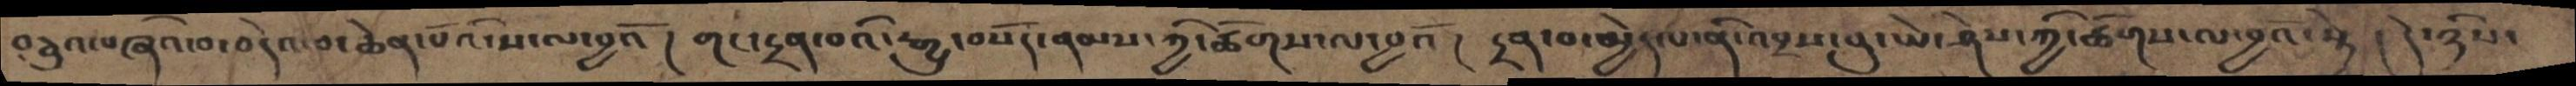བཅུའ་བཞིའ་བ་བདེའ་བ་ཆེན་པོའི་ས་ལ་བྱའོ ། གང་དྲན་བའི་རྒྱུ་བསོད་ནམས་ཀྱི་ཚོགས་ལ་བྱའོ ། དྲན་བ་མྱེད་པ་ནི་འབྲས་བུ་ཡེ་ཤེས་ཀྱི་ཚོགས་ལ་བྱའོ་སྟེ  ། དེ་ཉིས་
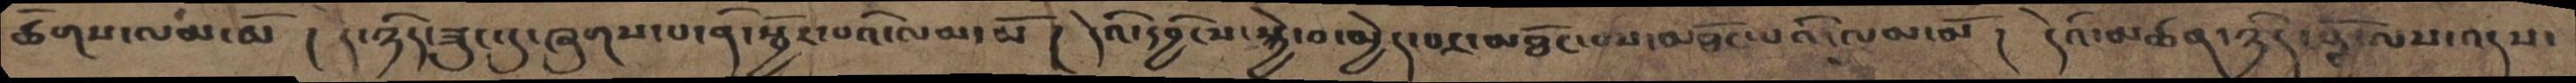ཚོགས་ལམ་མོ  ། དེ་ཉིད་ཟུང་དུ་ཞུགས་པ་ནི་སྦྱོར་བའི་ལམ་མོ ། དེའི་དབྱིངས་སྐྱེ་བ་མྱེད་པར་མཐོང་བས་མཐོང་པའི་ལམ་མོ །  དེའི་མཚན་ཉིད་བློ་ལས་འདས་
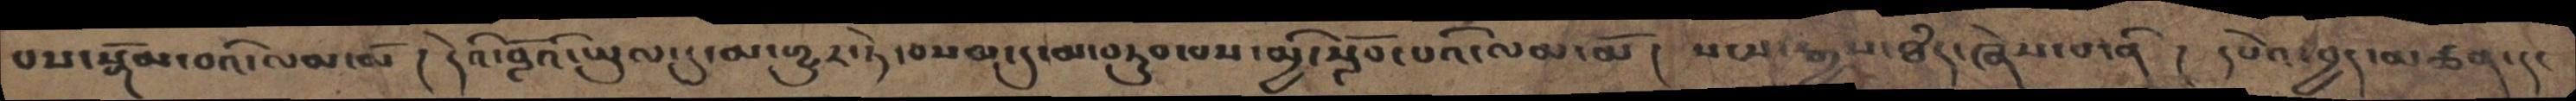པས་སྒོམ་བའི་ལམ་མོ  ། དེའི་བློའི་ཡུལ་དུ་མ་གྱུར་ཏེ་བསམ་དུ་མ་བཏུབ་པས་མྱི་སློབ་པའི་ལམ་མོ །  སངས་རྒྱས་ཐཾད་ཞེས་པ་ནི  །  དཔེའ་བྱད་མཚན་དང
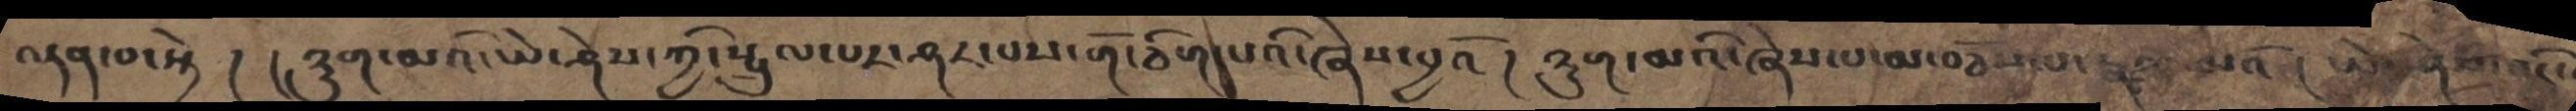འདན་བ་སྟེ་ ། །ཉུག་མའི་ཡེ་ཤེས་ཀྱི་སྤྲུལ་པར་ཤར་པས་གོ་ཅིག།པའི་ཞེས་བྱའོ ། ཉུག་མའི་ཞེས་པ་མ་བཅོས་པ་རྣལ་མའོ ། ཡེ་ཤེས་ཤར་
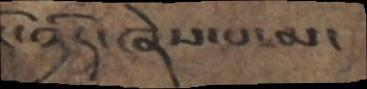དེ་ཉིད་ཞེས་པ་མང
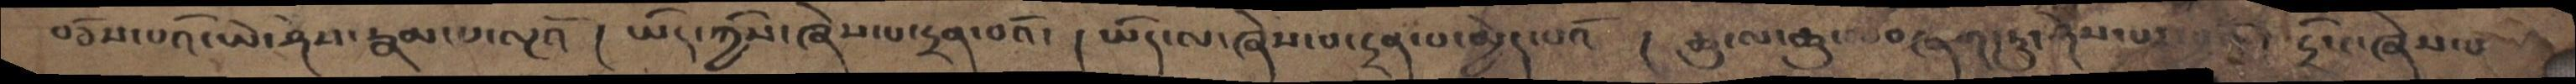བཅོས་པའི་ཡེ་ཤེས་རྣམ་པ་ལྔའོ ། ཡིད་ཀྱིས་ཞེས་པ་དྲན་བའོ་། ཡིད་ལ་ཞེས་པ་དྲན་པ་མྱེད་པའོ ། ཆུ་ལ་ཆུ་བཞག་ཏུ་ཤེས་པར་བྱའོ། དྲིས་ཞེས་པ་
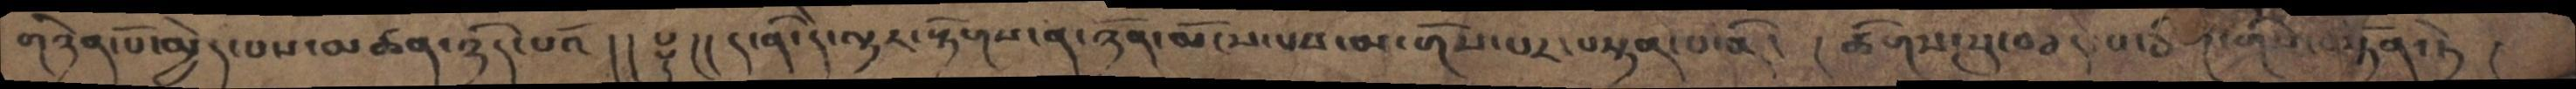གཉེན་པོ་མྱེད་པས་མཚན་ཉིད་པའོ།། ༈ །།ད་ནི་དེ་ལྟར་རྟོགས་ན་ཉོན་མོངས་པས་མ་གོས་པར་བསྟན་པ་ནི་ །ཚིགས་སུ་བཅད་པ་ཅིག་གིས་བསྟོན་ཏེ་ །
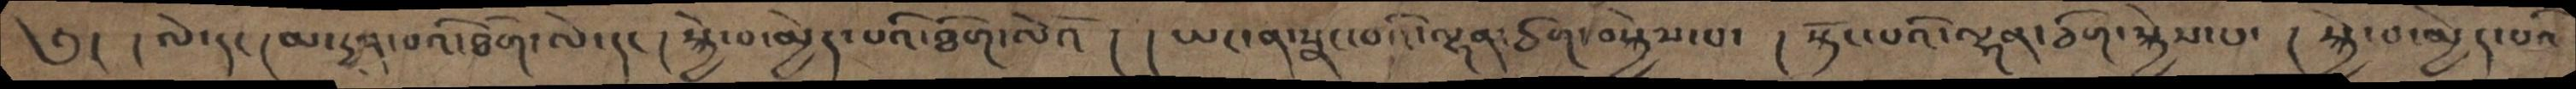༄།  །ལེ་དང ། མ་དྱན་པའི་ཐིག་ལེ་དང །སྐྱེ་བ་མྱེད་པའི་ཐིག་ལེའོ ། །ཡང་ན་སྣང་བའི་ལྷན་ཅིག་བསྐྱེས་པ་ །སྟོང་པའི་ལྷན་ཅིག་སྐྱེས་པ་ །སྐྱེ་བ་མྱེད་པའི་
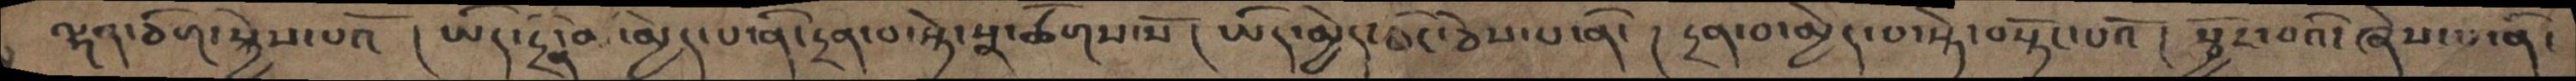ལྷན་ཅིག་སྐྱེས་པའོ ། ཡིད་དྲིན་བ་མྱེད་པ་ནི་དྲན་པ་སྟེ་སྣ་ཚོགས་སོ ། ཡིད་མྱེད་ཅིང་ཅེས་པ་ནི་། དྲན་བ་མྱེད་པ་སྟེ་བསྟོང་པའོ ། སྦྱོར་བའི་ཞེས་པ་ནི་
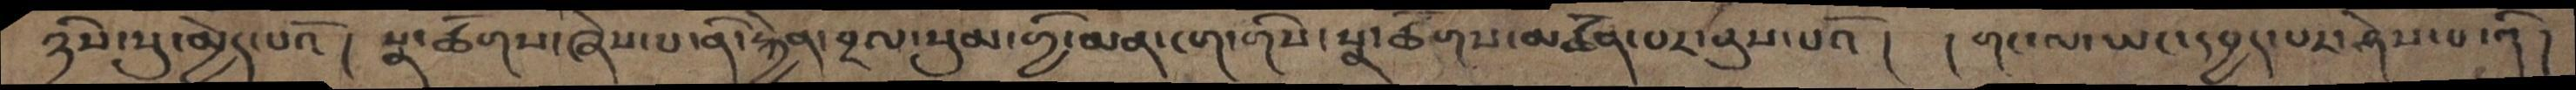ཉིས་སུ་མྱེད་པའོ །སྣ་ཚོགས་ཞེས་པ་ནི་རྐྱེན་བྲལ་སུམ་གྱི་མན་ངག་གིས་སྣ་ཚོགས་མཚོན་པར་ནུས་པའོ ། །གང་ལ་ཡང་དཔྱད་པར་ཤེས་པ་ནི།
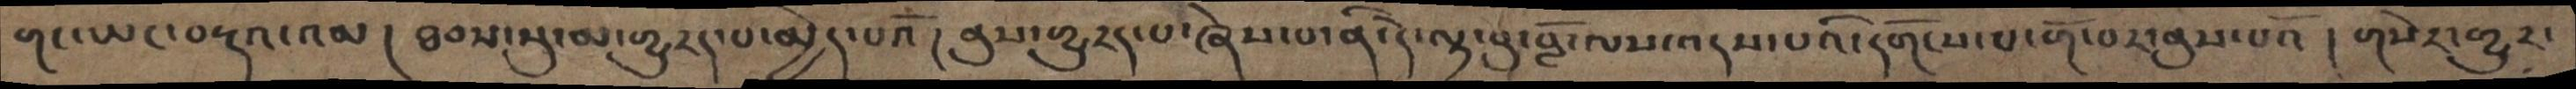གང་ཡང་བརྡའ་འམ །ཐབས་སུ་མ་གྱུརད་པ་མྱེད་པའོ །ནུས་གྱུརད་པ་ཞེས་པ་ནི་དེ་ལྟ་བུ་བློ་ལས་འདས་པའི་དགོངས་པ་གོ་བར་ནུས་པའོ། གསེར་གྱུར་
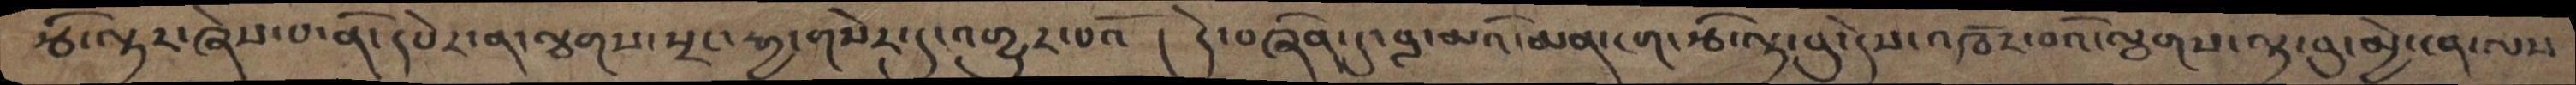རྩི་ལྟར་ཞེས་པ་ནི་དཔེར་ན་ལྕགས་སྲང་རྒྱ་གསེར་དུ་འགྱུར་བའོ ། དེ་བཞིན་དུ་བླ་མའི་མན་ངག་རྩི་ལྟ་བུ་དེས་འཁོར་བའི་ལྕགས་ལྟ་བུ་མྱེ་ངན་ལས
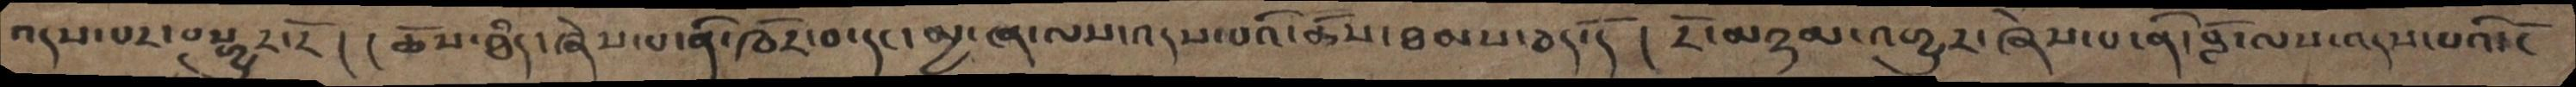འདས་པར་བསྒྱུར་རོ ། ཆོས་ཐདཾ་ཞེས་པ་ནི་ཁོར་བ་དང་མྱ་ངན་ལས་འདས་པའི་ཆོས་ཐམས་ཅད་དོ། རོ་མཉམ་འགྱུར་ཞེས་པ་ནི་བློ་ལས་འདས་པའི་ངོ
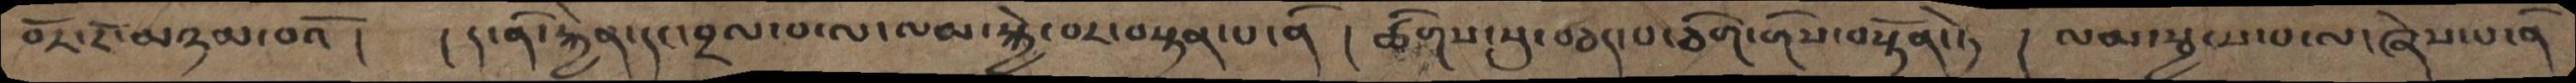བོར་རོ་མཉམ་པའོ། །ད་ནི་རྐྱེན་དང་བྲལ་བ་ལ་ལམ་སྐྱེ་བར་བསྟན་པ་ནི། ཚིགས་སུ་བཅད་པ་ཅིག་གིས་བསྟོན་ཏེ ། ལམ་སྦྱངས་པ་ལ་ཞེས་པ་ནི
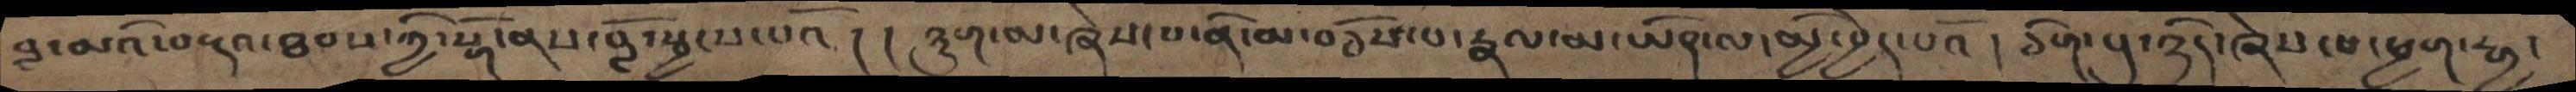བླ་མའི་བརྡའ་ཐབས་ཀྱི་སྒོ་ནས་བློ་སྦྱངས་པའོ ། །ཉུག་མ་ཞེས་པ་ནི་མ་བཅོས་པ་རྣལ་མ་ཡིད་ལ་མྱི་བྱེད་པའོ། ཅིག་པུ་ཉིད་ཞེས་པ་ཕྱག་རྒྱ་
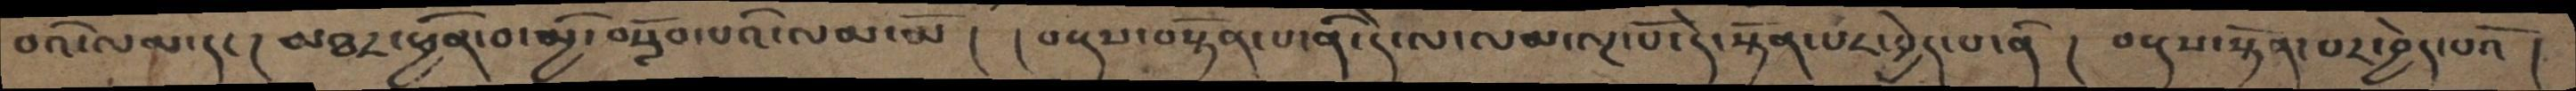བའི་ལམ་དང། མཐར་ཕྱིན་བ་མྱི་བསློབ་པའི་ལམ་མོ། །བརྡས་བསྟོན་པ་ནི་དེ་ལ་ལམ་ལྔ་པོ་དེ་སྟོན་པར་བྱེད་པ་ནི། བརྡས་སྟོན་པར་བྱེད་པའོ།
